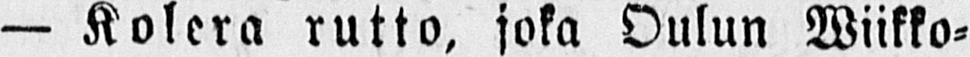— Kolera rutto, joka Oulun Wiikko-
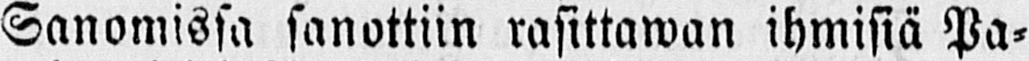Sanomissa sanottiin rasittawan ihmisiä Pa-
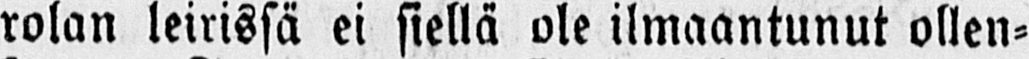rolan leirissä ei siellä ole ilmaantunut ollen-
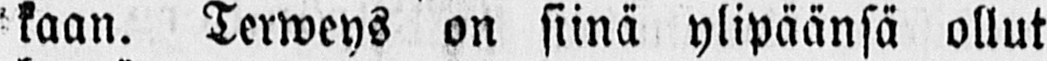kaan. Terweys on siinä ylipäänsä ollut
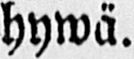hywä.
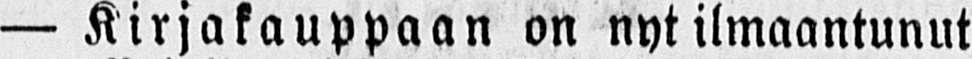— Kirjakauppaan on nyt ilmaantunut
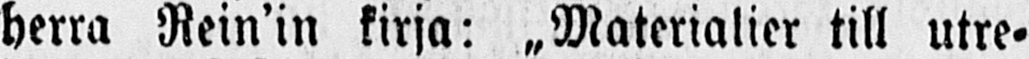herra Rein'in kirja: „Materialier till utre-
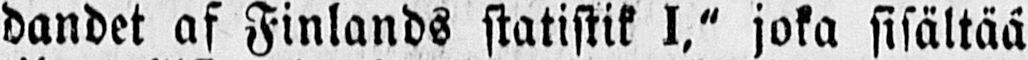dandet af Finlands statistik I," joka sisältää
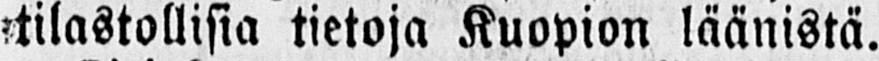tilastollisia tietoja Kuopion läänistä.
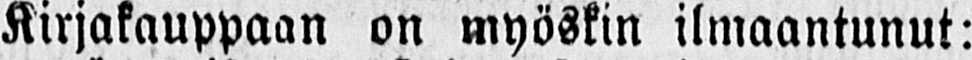Kirjakauppaan on myöskin ilmaantunut:
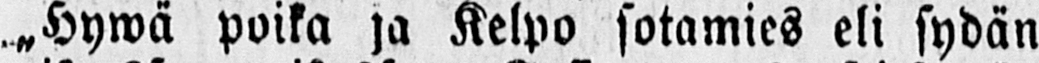„Hywä poika ja Kelpo sotamies eli sydän
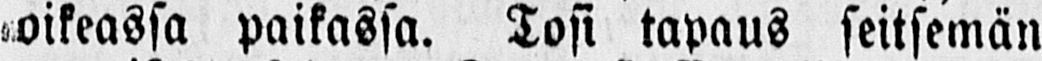oikeassa paikassa. Tosi tapaus seitsemän
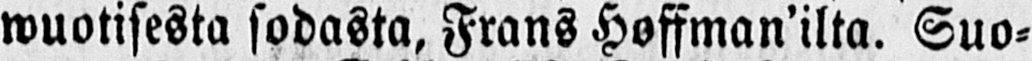wuotisesta sodasta, Frans Hoffman'ilta. Suo-
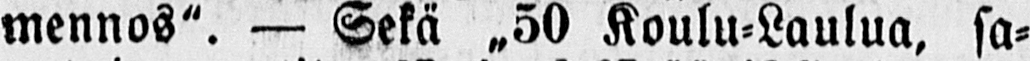mennos". — Sekä „50 Koulu-Laulua, sa-
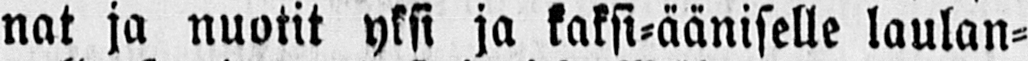nat ja nuotit yksi ja kaksi-ääniselle laulan-
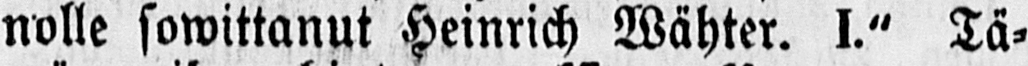nolle sowittanut Heinrich Wähter. I." Tä-
